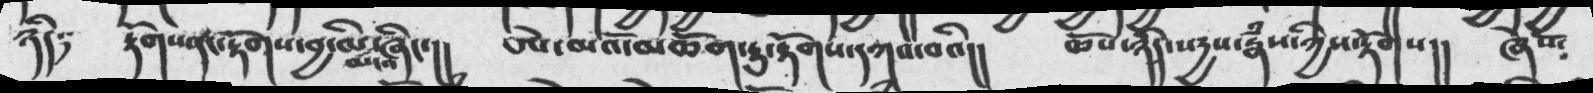ཉིད༴   རྟོགས་དང་རྟོགས་བྱ་མི་མངའ་ཞིང་།།   ཨེ་མའོ་མཆོག་ཏུ་རྟོགས་དཀའ་བའི།།    ཆོས་ཉིད་སརྱས་རྣཾས་ཀྱིས་རྟོགས།།   ཞེསོ༴
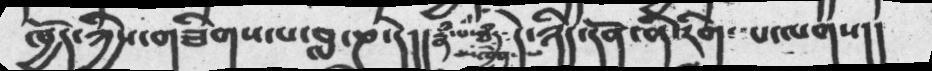ཁྱོད་ཀྱིས་གཟིགསཔ་བླ་ཎ་དེ།།  རྣཾ་པ་ཐཾད་མཁྱེན་པ་དེ་ཉིད་དོན་ནི་རིག་པ་ལགས།།
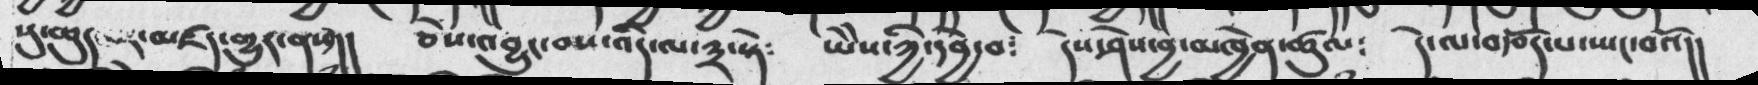སུ་ཆུད་པར་བཛད་གྱུར་ནས་།།   ཅེས་འབྱུང་བས་འདི་ལ་༣་སྟེ༴   ཡེེས་ཀྱི་དབྱེ་བ༴  དེས་ཤེས་བྱ་མཁྱེན་ཚུལ༴   དེ་ལ་བརྩོད་པ་སྤང་བའོ།།
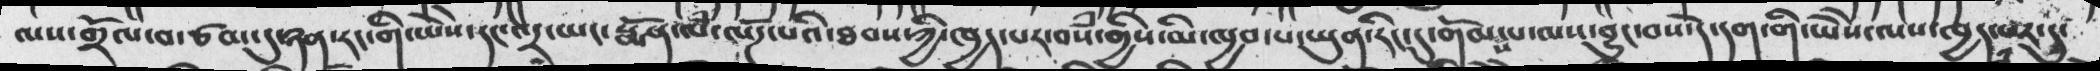ལས་གྲོལ་བ་ཙམ་དུ་ཉན་རང་གི་ཡེེས་དང་འདྲ་ཡང་སྨོན་ལཾ་ལོཌ་པའི་ཐབས་ཀྱི་ཁྱད་པར་བསཾ་གྱིས་མི་ཁྱབ་པ་ཡུན་རིང་དུ་གོམས་པ་ལས་བྱུང་བས་དེ་དདག་གི་ཡེེས་ལས་ཁྱད་པར་དུ་
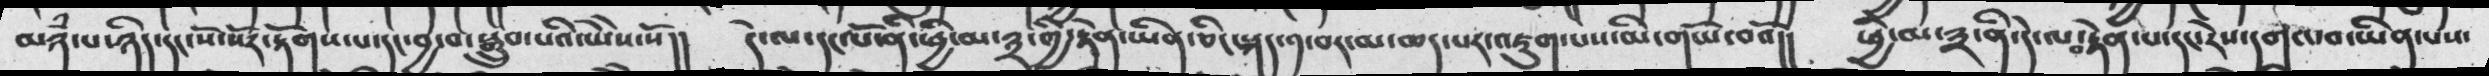མཉཾ་པ་ཉིད་དང་སོ་སོར་རྟོགས་པ་དང་བྱ་བ་སྒྲུབ་པའི་ཡེེས་སོ།།   དེ་ལ་དང་པོ་ནི་ཕྱི་མ་༣་གྱི་རྟེན་ཡིན་ཅིང་སྐད་༡་བར་མ་ཆད་པར་འཇུག་པས་མི་གཡོ་བའོ།།    ཕྱི་མ་༣་ནི་དེ་བརྟེན་པ་དང་རེས་དགའ་བ་ཡིན་པས་
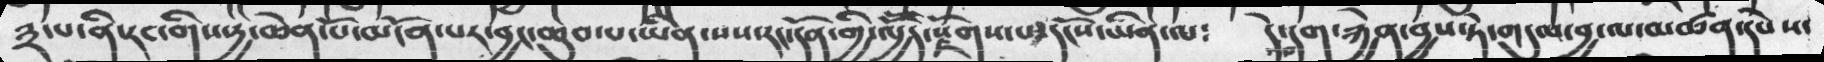༣་པ་ནི་རང་གིས་རྱ་ཆེན་པོ་མངོན་པར་བྱང་ཆུབ་པ་ཡིན་པ་ཡིན་པས་རང་དོན་གྱི་ལྱོོད་སྫོགས་པ་དངོོས་ཡིན་ལ༴    དེ་བདག་རྐྱེན་བྱས་ཏེ་གདུལ་བྱ་ལ་མཚན་དཔེས་
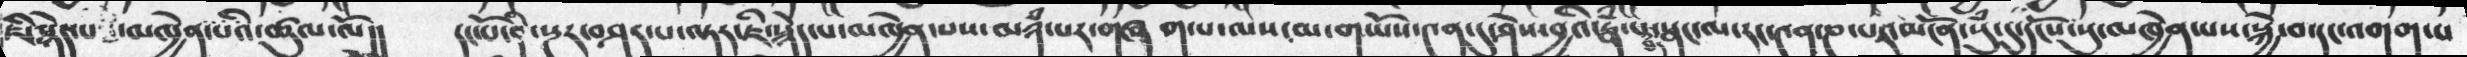ཇི་སྙེད་པ་མཁྱེན་པའི་ཚུལ་ལོ།།   དང་པོ་ནི་སྔར་བཤད་པ་ལྟར་ཇི་སྙེད་པ་མཁྱེན་པས་མཉཾ་པར་གཞག་པ་ལས་མ་གཡོས་༤ན་དུ་ཤེས་བྱའི་རྣཾ་པ་ཐཾད་སྣང་ལ་རང་༤ན་ཎ་པར་མངོན་སུཾ་དུ་དངོས་སུ་མཁྱེན་པས་སྐྱེ་བ་དང་འགག་པ་
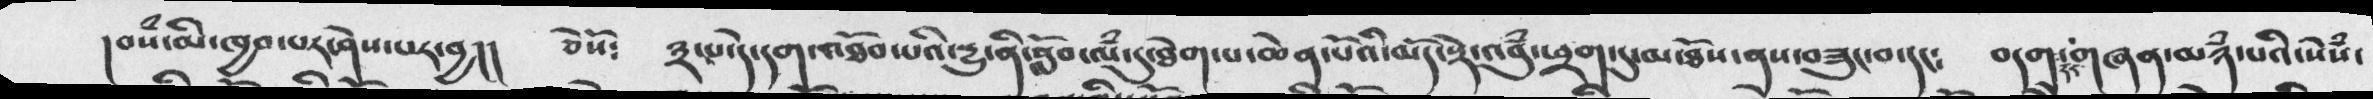།བསཾ་མི་ཁྱབ་པར་ཤེས་པར་བྱ།།   ཅེསོ༴   ༣་པ་དེ་དག་འཐོབ་པའི་རྱུ་ནི་སློབ་ལཾ་དུ་ཐེག་པ་ཆེན་པོའི་མདོ་སྡེ་འབུཾ་ཕྲག་དུ་མ་ཐོས་ནས་བཟུང་བ་དངད༴    བདག་དང་གཞན་མཉཾ་པའི་སེཾས་
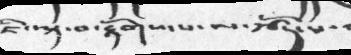ཇི་ལྟ་བ་རྟོགས་པ་ལ་རྩོད་པ་
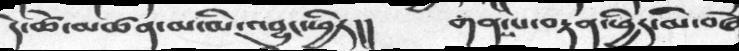དེ་ཚེ་མཚན་མ་མི་འབྱུང་ཕྱིར།།    གནས་པ་བརྟན་ཕྱིར་མི་བཞེ
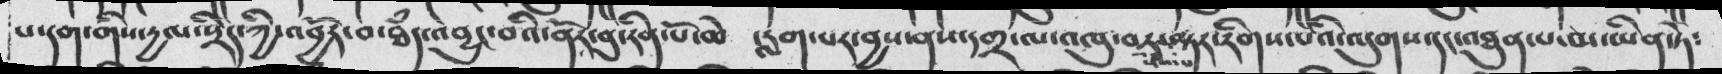པ་དག་གིས་དྱལ་སྲིད་ཀྱི་འབྱོར་བ་ཐཾད་འབྱུང་བའི་ནོར་བུ་རིན་པོ་ཆེ  ་རླག་པར་བྱས་ནས་དགྲ་ལ་འཁུ་བར་སེཾས་པ་ལྟར་རིགས་པའི་ལུགས་དང་མཐུན་པ་མ་ཡིན་ཏེ༴
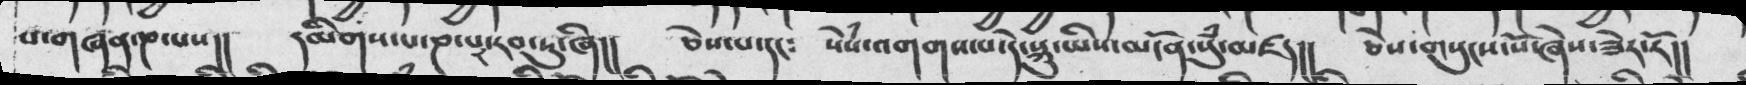པ་གཞན་ཎ་པས།།  དམིགས་པ་ཎ་པར་རབ་ཏུ་ཞི།།   ཅེས་པ་དང༴   སེཾས་འགགས་པ་དེ་སྐུ་ཡིས་མངོན་སུཾ་མཛད།།  ཅེས་གསུངས་སོ་ཞེས་ཟེར་རོ།།
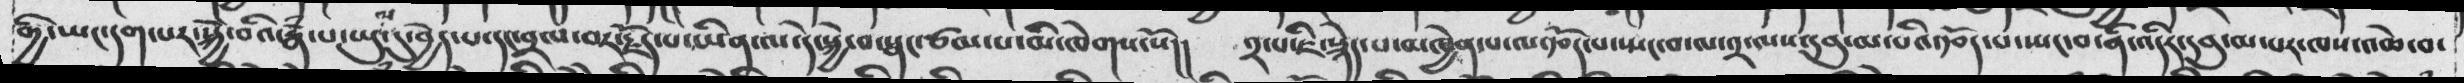གྱི་ཡང་དག་པར་སྐྱེ་བའི་རྣཾ་པ་ཡུལ་དུ་བྱེད་པ་དང་བྲལ་བར་རྗོད་པ་ཡིན་ལ་དེ་སྐྱེ་བ་སྣང་ཙམ་མི་ཁེགས་སོ།།  ༢་པ་ཇི་རྙེད་པ་མཁྱེན་པ་ལ་རྩོད་པ་སྤང་བ་ལ་༢་ལས་དབུ་མ་པའི་རྩོད་པ་སྤང་བ་ནི་འདིར་དབུ་མ་པར་ཁས་འཆེ་བ་
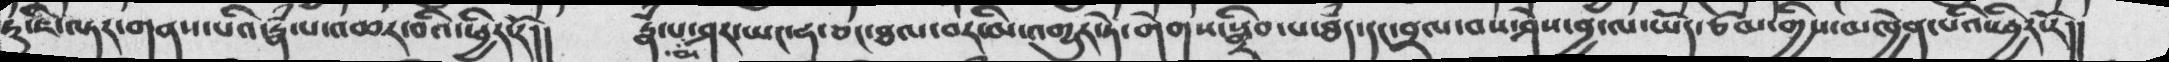ཏུ་ཇི་ལྟར་གནས་པའི་རྣཾ་པ་འཆར་བའི་ཕྱིར་རོ།།  རྣཾ་པ་མ་ཤར་ཡང་ཧ་ཅང་ཐལ་བར་མི་འགྱུར་ཏེ་གེགས་སྒྲིབ་པ་ཐཾད་དང་བྲལ་བས་ཤེས་བྱ་ལ་ཡོད་ཙམ་གྱིས་མཁྱེན་པའི་ཕྱིར་རོ།།
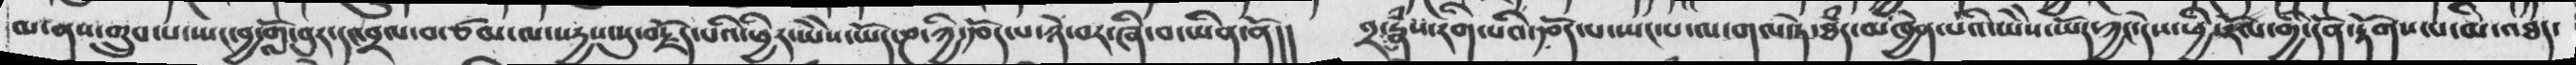མ་ནས་གྲུབ་པ་སྤང་བྱ་གློ་བུར་དང་བྲལ་བ་ཙམ་ལ་སདྱས་སུ་བརྗོད་པའི་ཕྱིར་ཡེེས་ཡོད་ཎ་ཀྱི་རྩོད་པ་ཉེ་བར་ཞི་བ་ཡིན་ནོ།། ༢་པ་རྣཾ་རིག་རྩོད་པ་སྤང་པ་ལ་གལ་ཏེ་ཐཾད་མཁྱེན་པའི་ཡེེས་ཡོད་ཀྱང་དེས་ཕྱི་རོལ་གྱི་དོན་རྟོགས་པ་མི་འཐད་
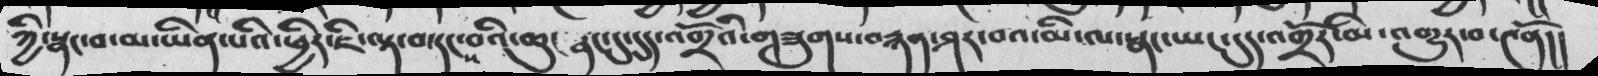ཀྱི་སྣང་བ་མ་ཡིན་པའི་ཕྱིར་ཇི་ལྟ་བ་དངས་བའི་ཆུང་སྣང་དུ་དུད་འགྲོའི་གཟུགས་བརྙན་ཤར་བའ་མི་ལ་སྣང་ཡང་དུད་འགྲོར་མི་འགྱུར་བ་༤ནོ།།
